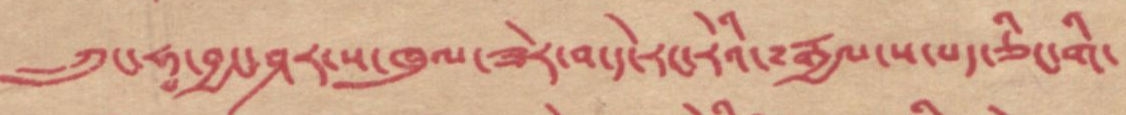ཀྲུང་ཧྭ་བྱང་ཤར་ས་ཁུལ་ཟེར་བ་དེ་རང་རེའི་༸རྒྱལ་ས་པད་ཅིང་གི་
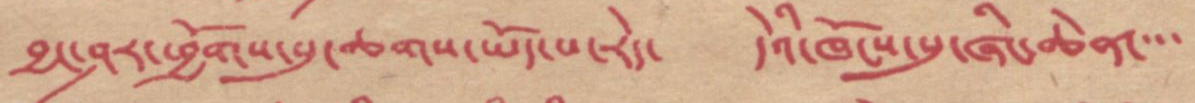བྱང་ཤར་ཕྱོགས་སུ་ཆགས་ཡོད་པ་རེད་ དེའི་ཁོངས་སུ་ཞིང་ཆེན་
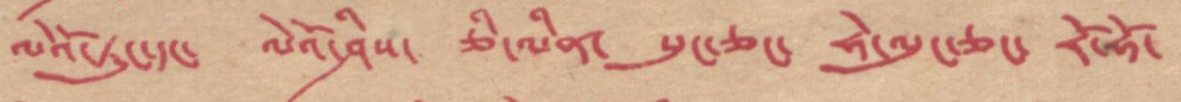ལེའོ་ཏུང་དང་ ལེའོ་ཤིས་ ཅི་ལིན་ སུང་ཅང་ ཧེ་ལུང་ཅང་ རོ་ཧོ་
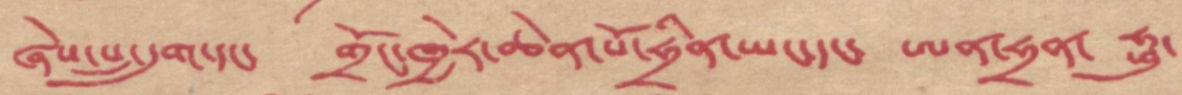ཞེས་པ་དྲུག་དང་ གྲོང་ཁྱེར་ཆེན་པོ་ཧྲིན་ཡང་དང་ ཨན་ཧྲན་ ཧྥུ་
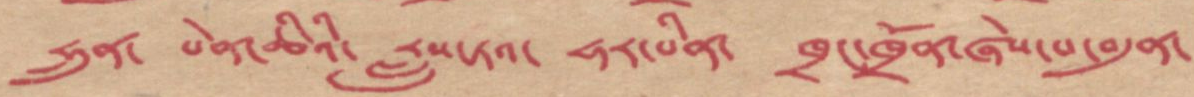ཧྲུན་ པེན་ཆིའི་ རླུས་ཏའ་ ཧར་པིན་ ཁྲང་ཁྲོན་ཞེས་པ་བདུན་
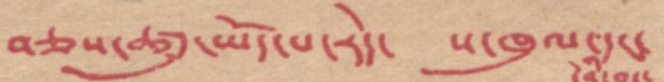བཅས་ཚུ་ཡོད་པ་རེད་ ས་ཁུལ་དང་
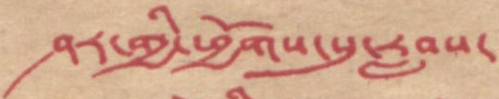ཤར་གྱི་ཕྱོགས་སུ་རླབས་
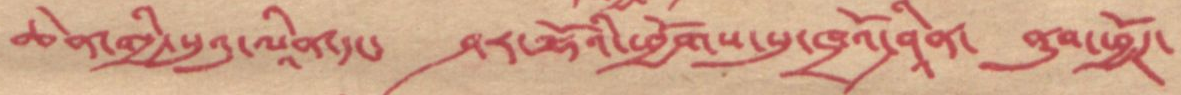ཆེན་གྱི་སུའུ་ལཱིན་དང་ ཤར་ལྷོའི་ཕྱོགས་སུ་ཁྲོའི་ཤཱིན་ ནུབ་ཕྱོགས་
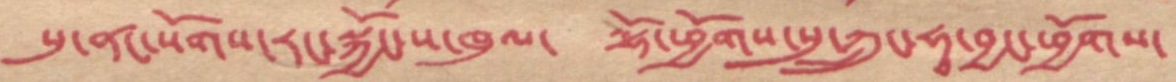སུ་ནང་སོགས་རང་སྐྱོང་ས་ཁུལ་ ལྷོ་ཕྱོགས་སུ་ཀྲུང་ཧྭ་བྱང་ཕྱོགས་
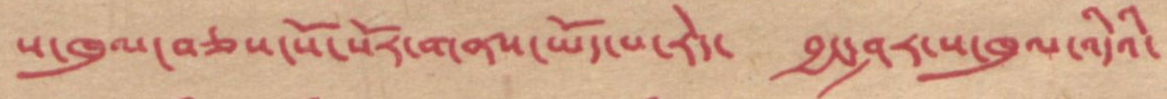ས་ཁུལ་བཅས་སོ་སོར་གནས་ཡོད་པ་རེད་ བྱང་ཤར་ས་ཁུལ་འདིའི་
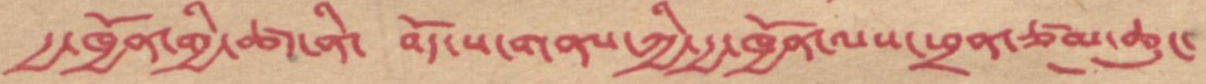རྒྱ་ཁྱོན་གྱི་ཚད་ནི་ བོད་ས་གནས་ཀྱི་རྒྱ་ཁྱོན་ལས་ཕྲན་ཙམ་ཆུང་
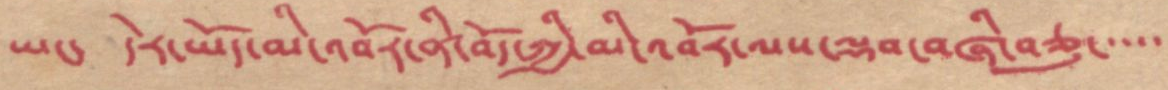ཡང་ དེར་ཡོད་མི་འབོར་ནི་བོད་ཀྱི་འབོར་ལས་ལྷབ་བཞི་བཅུ་་་་་
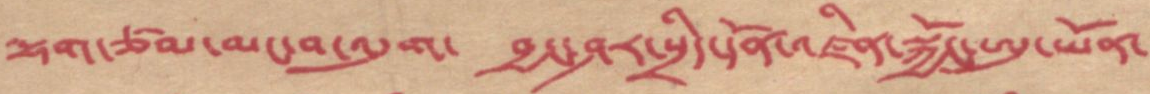ལྷག་ཙམ་མང་བ་འདུག བྱང་ཤར་སྲིད་དོན་འཛིན་སྐྱོང་ཨུ་ཡོན་
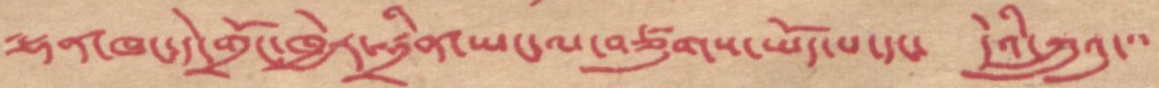ལྷན་ཁང་དེ་གྲོང་ཁྱེར་ཧྲིན་ཡང་ལ་བཙུགས་ཡོད་པ་དང་ དེའི་ཀྲུའུ་་་
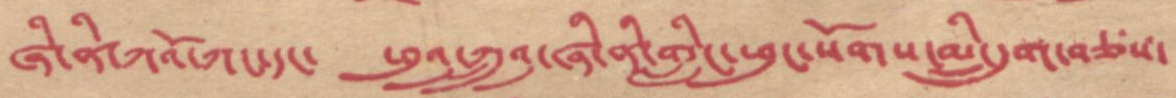ཞི་ནི་ཀའོ་ཀང་དང་ ཕུའུ་ཀྲུའུ་ཞི་ནི་གླིང་ཕུང་སོགས་མི་དྲུག་བཅས་
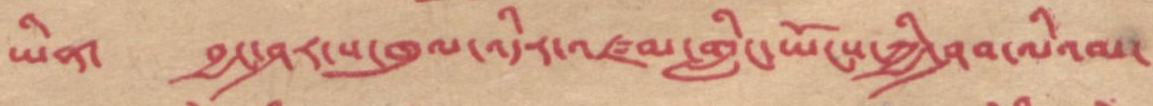ཡིན་ བྱང་ཤར་ས་ཁུལ་འདིར་འཛམ་གླིང་ཡོངས་ཀྱི་ཤབ་ལིའམ་
